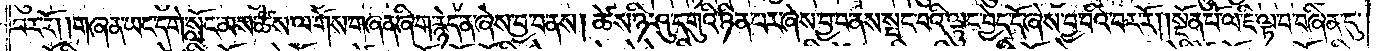བར་རོ། །གཞན་ཡང་དགེ་སློང་མས་ཚེས་ལ་གོས་གཞན་ཞིག་རྙེད་ན་ཞེས་བྱ་བ་ནས། ཚེས་ཉི་ཤུ་དགུའི་ཉིན་པར་ཞེས་བྱ་བ་ནས་སྤང་བའི་ལྟུང་བྱེད་དོ་ཞེས་བྱ་བའི་བར་རོ། །སྔོན་པོ་ལ་ཇི་ལྟ་བ་བཞིན་དུ་
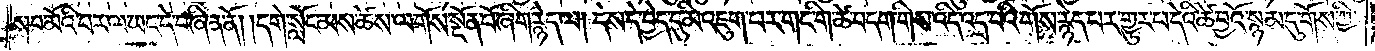སྲབ་མོའི་བར་ལ་ཡང་དེ་བཞིན་ནོ། །དགེ་སློང་མས་ཆེས་ལ་གོས་སྔོན་པོ་ཞིག་རྙེད་ལ། དེས་དེ་བྱེད་དུ་མི་འཇུག་པར་གང་གི་ཚེ་བདག་གིས་འདི་འདྲ་བའི་གོས་རྙེད་པར་གྱུར་པ་དེའི་ཚེ་བྱའོ་སྙམ་དུ་གོས་ཀྱི་
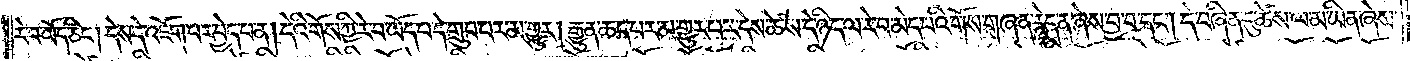རེ་བ་ཡོད་ཅིང༌། དེས་དེ་འཇོག་པར་བྱེད་པ་ན། དེའི་གོས་ཀྱི་རེ་བ་ཡོད་པ་དེ་གྲུབ་པར་མ་གྱུར། རྒྱུན་ཆད་པར་མ་གྱུར་པར་དེས་ཆེས་དེ་ཉིད་ལ་རེ་བ་མེད་པའི་གོས་གཞན་རྙེད་ན་ཞེས་བྱ་བ་དང༌། དེ་བཞིན་དུ་ཚེས་ལ་མ་ཡིན་ཞེས་
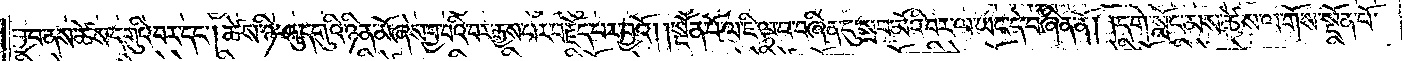བྱ་བ་ནས་ཚེས་དགུའི་བར་དང༌། ཚེས་ཉི་ཤུ་དགུའི་ཉིན་མོ་ཞེས་བྱ་བའི་བར་རྒྱས་པར་བརྗོད་པར་བྱའོ། །སྔོན་པོ་ལ་ཇི་ལྟ་བ་བཞིན་དུ་སྲབ་མེའི་བར་ལ་ཡང་དེ་བཞིན་ནོ། །དགེ་སློང་མས་ཚེས་ལ་གོས་སྔོན་པོ་
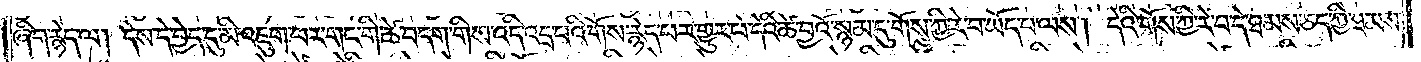ཞིག་རྙེད་ལ། དེས་དེ་བྱེད་དུ་མི་འཇུག་པར་གང་གི་ཚེ་བདག་གིས་འདི་འདྲ་བའི་གོས་རྙེད་པར་གྱུར་པ་དེའི་ཚེ་བྱའོ་སྙམ་དུ་གོས་ཀྱི་རེ་བ་ཡོད་པ་ལས། དེའི་གོས་ཀྱི་རེ་བ་དེ་ཐམས་ཅད་ཀྱི་ཐམས་
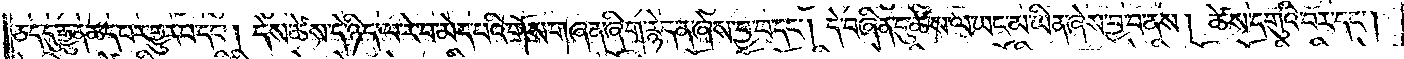ཅད་དུ་རྒྱུན་ཆད་པར་གྱུར་པ་དང༌། དེས་ཚེས་དེ་ཉིད་ལ་རེ་བ་མེད་པའི་གོས་གཞན་ཞིག་རྙེད་ན་ཞེས་བྱ་བ་དང༌། དེ་བཞིན་དུ་ཚེས་ལ་ཡང་མ་ཡིན་ཞེས་བྱ་བ་ནས། ཚེས་དགུའི་བར་དང༌།
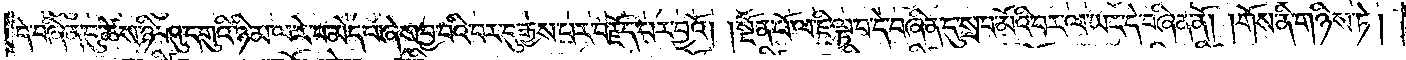དེ་བཞིན་དུ་ཚེས་ཉི་ཤུ་དགུའི་ཉི་མ་ལ་རེ་བ་མེད་པ་ཞེས་བྱ་བའི་བར་དུ་རྒྱས་པར་བརྗོད་པར་བྱའོ། །སྔོན་པོ་ལ་ཇི་ལྟ་བ་དེ་བཞིན་དུ་སྲབ་མོའི་བར་ལ་ཡང་དེ་བཞིན་ནོ། །གོས་ནི་གཉིས་ཏེ།
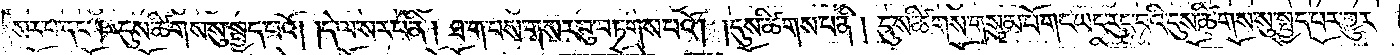སར་པ་དང༌། དུས་ཚིགས་སུ་སྤྱད་པའོ། །དེ་ལ་སར་པ་ནི། ཐ་ག་པས་གསར་བུ་བཏགས་པའོ། །དུས་ཚིགས་པ་ནི། དུས་ཚིགས་གསུམ་པོ་གང་ཡང་རུང་བའི་དུས་ཚིགས་སུ་སྤྱད་པར་གྱུར་
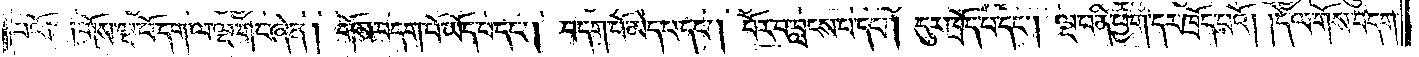པའོ༑ ༑གོས་ལྔ་པོ་དག་ལ་ལྔ་གང་ཞེ་ན། གོས་བདག་པོ་ཡོད་པ་དང༌། བདག་པོ་མད་པ་དང༌། བོར་བ་བླངས་པ་དང༌། དུར་ཁྲོད་པ་དང༌། ལྔ་པ་ནི་ཕྱག་དར་ཁྲོད་པའོ། །དེ་ལ་གོས་བདག་
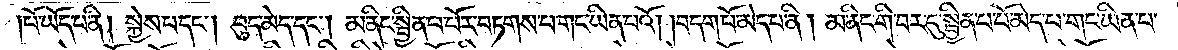པོ་ཡོད་པ་ནི། སྐྱེས་པ་དང༌། བུད་མེད་དང༌། མ་ནིང་སྦྱིན་པ་པོར་བཏགས་པ་གང་ཡིན་པའོ། །བདག་པོ་མེད་པ་ནི། མ་ནིང་གི་བར་དུ་སྦྱིན་པ་པོ་མེད་པ་གང་ཡིན་པ་
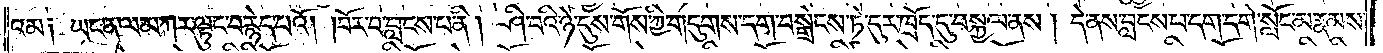འམ། ཡང་ན་ལམ་ཀར་ལྟུང་བ་རྙེད་པའོ། །བོར་བ་བླངས་པ་ནི། ཤི་བའི་ཉེ་དུས་གོས་ཀྱི་གདུགས་དག་བསྒྲེངས་ཏེ་དུར་ཁྲོད་དུ་བསྐྱལ་ནས། དེ་ནས་བླངས་པ་དག་དགེ་སློང་མ་རྣམས་
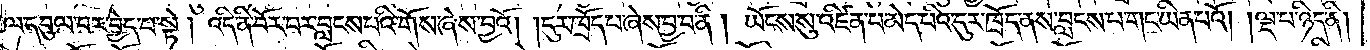ལ་དབུལ་བར་བྱེད་པ་སྟེ། འདི་ནི་བོར་བར་བླངས་པའི་གོས་ཞེས་བྱའོ། །དུར་ཁྲོད་པ་ཞེས་བྱ་བ་ནི། ཡོངས་སུ་འཛིན་པ་མེད་པའི་དུར་ཁྲོད་ནས་བླངས་པ་གང་ཡིན་པའོ། །ལྔ་པ་ཉིད་ནི།
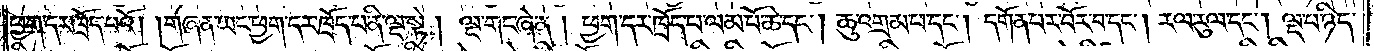ཕྱག་དར་ཁྲོད་པའོ། །གཞན་ཡང་ཕྱག་དར་ཁྲོད་པ་ནི་ལྔ་སྟེ། ལྔ་གང་ཞེ་ན། ཕྱག་དར་ཁྲོད་པ་ལམ་པོ་ཆེ་དང༌། ཆུ་འགྲམ་པ་དང༌། དགོན་པར་བོར་བ་དང༌། རལ་རུལ་དང༌། ལྔ་པ་ཉིད་
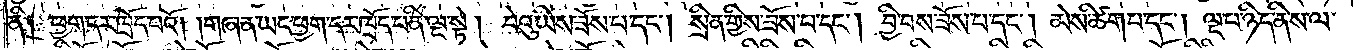ནི༑ ཕྱག་དར་ཁྲོད་པའོ། །གཞན་ཡང་ཕྱག་དར་ཁྲོད་པ་ནི་ལྔ་སྟེ། བེའུ་ཡིས་ཟོས་པ་དང༌། སྲིན་གྱིས་ཟོས་པ་དང༌། བྱི་བས་ཟོས་པ་དང༌། མེས་ཚིག་པ་དང༌། ལྔ་པ་ཉིད་ནི་ས་ལ་
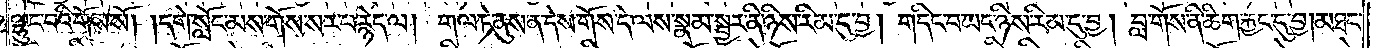ལྷུང་བའི་གོས་སོ། །དགེ་སློང་མས་གོས་སར་པ་རྙེད་ལ། གལ་ཏེ་ནུས་ན་དེས་གོས་དེ་ལས་སྣམ་སྦྱར་ནི་ཉིས་རིམ་དུ་བྱ། གདིང་བ་ཡང་ཉིས་རིམ་དུ་བྱ། བླ་གོས་ནི་ཆིག་རྐྱང་དུ་བྱ། མཐང་
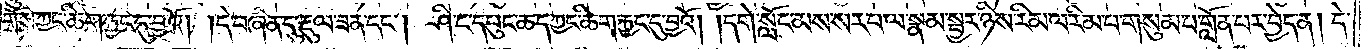གོས་ཀྱང་ཆིག་རྐྱང་དུ་བྱའོ། །དེ་བཞིན་དུ་རྡུལ་ཟན་དང༌། ཤི་ང་དཔུང་ཆད་ཀྱང་ཆིག་རྐྱང་དུ་བྱའོ། །དགེ་སློང་མས་སར་པ་ལ་སྣམ་སྦྱར་ཉིས་རིམ་ལ་རིམ་པ་གསུམ་པ་གློན་པར་བྱེད་ན། དེ་
